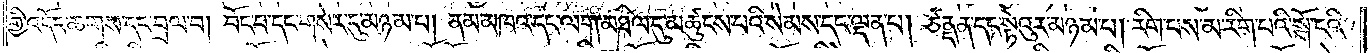གྱི་འདོད་ཆགས་དང་བྲལ་བ། བོང་བ་དང་གསེར་དུ་མཉམ་པ། ནམ་མཁའ་དང་ལག་མཐིལ་དུ་མཚུངས་པའི་སེམས་དང་ལྡན་པ། ཙནྡན་དང་སྟེའུར་མཉམ་པ། རིག་པས་མ་རིག་པའི་སྒོ་ངའི་
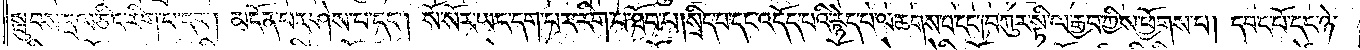སྦུབས་དྲལ་ཅིང་རིག་པ་དང༌། མངོན་པར་ཤེས་པ་དང༌། སོ་སོར་ཡང་དག་པར་རིག་པ་ཐོབ་པ། སྲིད་པ་དང་འདོད་པའི་རྙེད་པ་ལ་ཆགས་པ་དང༌། བཀུར་སྟི་ལ་རྒྱབ་ཀྱིས་ཕྱོགས་པ། དབང་པོ་དང་ཉེ་
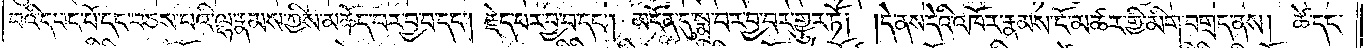བའི་དབང་པོ་དང་བཅས་པའི་ལྷ་རྣམས་ཀྱིས་མཆོད་པར་བྱ་བ་དང༌། རྗེད་པར་བྱ་བ་དང༌། མངོན་དུ་སྨྲ་བར་བྱ་བར་གྱུར་ཏོ། །དེ་ནས་དེའི་འཁོར་རྣམས་ངོ་མཚར་གྱི་མིག་བགྲད་ནས། ཚེ་དང་
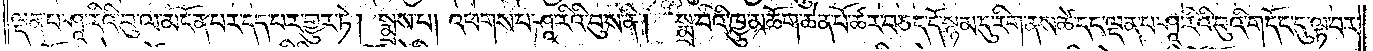ལྡན་པ་ཤཱ་རིའི་བུ་ལ་མངོན་པར་དད་པར་གྱུར་ཏེ། སྨྲས་པ། འཕགས་པ་ཤཱ་རིའི་བུས་ནི། སྨྲ་བའི་ཁྱུ་མཆོག་ཆེན་པོ་ཚར་བཅད་དོ་སྙམ་དུ་རིག་ནས་ཚེ་དང་ལྡན་པ་ཤཱ་རིའི་བུའི་གདོང་དུ་ལྟ་བར་
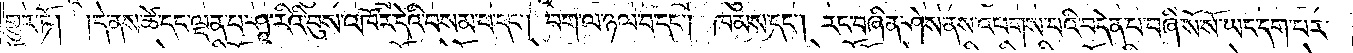གྱུར་ཏོ། །དེ་ནས་ཚེ་དང་ལྡན་པ་ཤཱ་རིའི་བུས་འཁོར་དེའི་བསམ་པ་དང༌། བག་ལ་ཉལ་བ་དང༌། ཁམས་དང༌། རང་བཞིན་ཤེས་ནས་འཕགས་པའི་བདེན་པ་བཞི་སོ་སོ་ཡང་དག་པར་
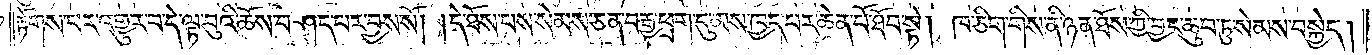རྟོགས་པར་འགྱུར་བ་དེ་ལྟ་བུའི་ཆོས་བཤད་པར་བྱས་སོ། །དེ་ཐོས་པས་སེམས་ཅན་བརྒྱ་ཕྲག་དུ་མས་ཁྱད་པར་ཆེན་པོ་ཐོབ་སྟེ། ཁ་ཅིག་གིས་ནི་ཉན་ཐོས་ཀྱི་བྱང་ཆུབ་ཏུ་སེམས་བསྐྱེད།
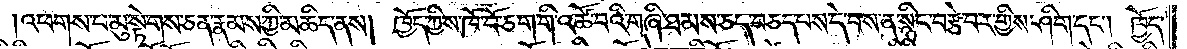འཕགས་པ་མུ་སྟེགས་ཅན་རྣམས་ཀྱི་མཆིད་ནས། ཁྱོད་ཀྱིས་ཁོ་བོ་ཅག་གི་འཚོ་བའི་གཞི་ཐམས་ཅད་བཅད་པས་དེ་བས་ན་སྙིང་བརྩེ་བར་གྱིས་ཤིག་དང༌། ཁྱོད་
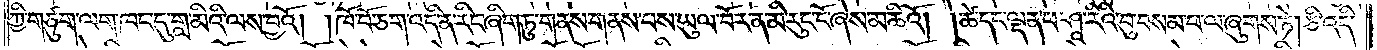ཀྱི་གཙུག་ལག་ཁང་དུ་གླ་མིའི་ལས་བྱའོ། །ཁོ་བོ་ཅག་འདི་ན་རིང་ཞིག་ཏུ་གནས་གནས་པས་ཡུལ་བོར་ན་མི་རུང་ངོ་ཞེས་མཆིའོ། །ཚེ་དང་ལྡན་པ་ཤཱ་རིའི་བུ་བསམ་པ་ལ་ཞུགས་ཏེ། ཅི་འདི་
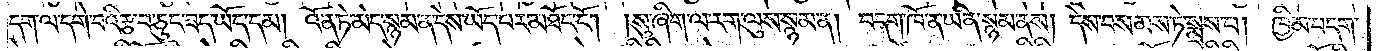དག་ལ་དགེ་བའི་རྩ་བ་ཅུང་ཟད་ཡོད་དམ། འོན་ཏེ་མེད་སྙམ་ན་དེས་ཡོད་པར་མཐོང་ངོ༌། །སུ་ཞིག་ལ་རག་ལུས་སྙམ་ན། བདག་ཁོ་ན་ཡིན་སྙམ་ནས། དེས་བསམས་ཏེ་སྨྲས་པ། ཁྱིམ་བདག་
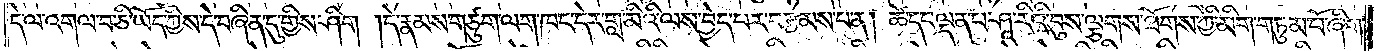དེ་ལ་འགལ་བ་ཅི་ཡོད་ཀྱིས་དེ་བཞིན་དུ་གྱིས་ཤིག །དེ་རྣམས་གཙུག་ལག་ཁང་དེར་གླ་མིའི་ལས་བྱེད་པར་བརྩམས་པ་ན། ཚེ་དང་ལྡན་པ་ཤཱ་རིའི་བུས་ལྕགས་ཐོགས་ཀྱི་མིག་གཏུམ་པོ་ཞིག་
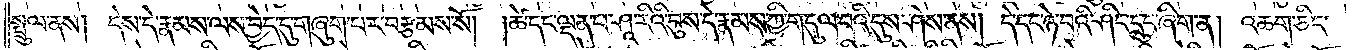སྤྲུལ་ནས།  དེས་དེ་རྣམས་ལས་བྱེད་དུ་གཞུག་པར་བརྩམས་སོ། །ཚེ་དང་ལྡན་པ་ཤཱ་རིའི་བུས་དེ་རྣམས་ཀྱི་གདུལ་བའི་དུས་ཤེས་ནས། དེ་དང་ཉེ་བའི་ཤིང་དྲུང་ཞིག་ན། འཆག་ཅིང་
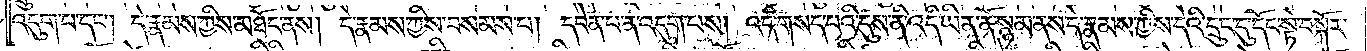འདུག་པ་དང༌། དེ་རྣམས་ཀྱིས་མཐོང་ནས། དེ་རྣམས་ཀྱིས་བསམས་པ། དབེན་པ་ན་འདུག་པས། འདི་གསད་པའི་དུས་ནི་འདི་ཡིན་ནོ་སྙམ་ནས་དེ་རྣམས་ཀྱིས་དེའི་དྲུང་དུ་དོང་སྟེ་བསྐོར་
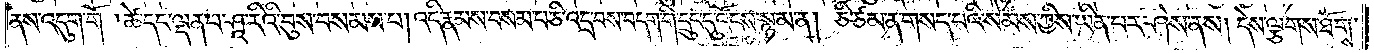ནས་འདུག་གོ །ཚེ་དང་ལྡན་པ་ཤཱ་རིའི་བུས་བསམས་པ། འདི་རྣམས་བསམ་པ་ཅི་འདྲ་བས་བདག་གི་དྲུང་དུ་འོངས་སྙམ་ན། ཅི་ཙམ་ན་གསད་པའི་སེམས་ཀྱིས་ཡིན་པར་ཤེས་ནས། དེས་ལྕགས་ཐོགས་
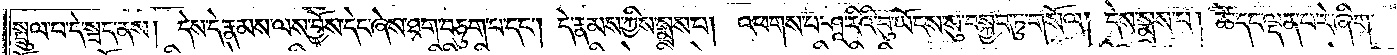སྤྲུལ་པ་དེ་སྦད་ནས། དེས་དེ་རྣམས་ལས་བྱོས་དེང་ཞེས་ཐག་བཅུག་པ་དང༌། དེ་རྣམས་ཀྱིས་སྨྲས་པ། འཕགས་པ་ཤཱ་རིའི་བུ་ཡོངས་སུ་བསྐྱབ་ཏུ་གསོལ། དེས་སྨྲས་པ། ཚེ་དང་ལྡན་པ་རེ་ཞིག་
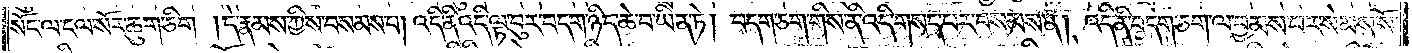སོང་ལ་ངལ་སོར་ཆུག་ཅིག །དེ་རྣམས་ཀྱིས་བསགས་པ། འདི་ནི་འདི་ལྟ་བུར་བདག་ཉིད་ཆེ་བ་ཡིན་ཏེ། བདག་ཅག་གིས་ནི་འདི་གསད་པར་བསམས་ན། འདི་ནི་བདག་ཅག་ལ་བྱམས་པར་སེམས་སོ་
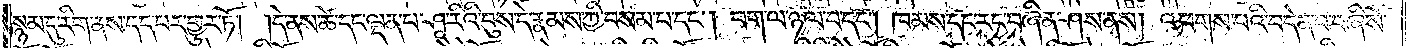སྙམ་དུ་རིག་ནས་དད་པར་གྱུར་ཏོ། །དེ་ནས་ཚེ་དང་ལྡན་པ་ཤཱ་རིའི་བུས་དེ་རྣམས་ཀྱི་བསམ་པ་དང༌། བག་ལ་ཉལ་བ་དང༌། ཁམས་དང་རང་བཞིན་ཤེས་ནས། འཕགས་པའི་བདེན་པ་བཞི་སོ་
